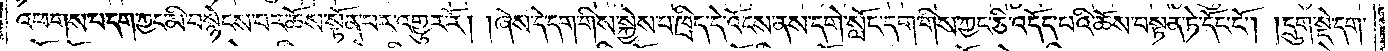འཕགས་པ་དག་ཀྱང་མི་བསྙེངས་པར་ཆོས་སྟོན་པར་འགྱུར་རོ། །ཞེས་དེ་དག་གིས་སྐྱེས་པ་ཁྲིད་དེ་འོངས་ནས་དགེ་སློང་དག་གིས་ཀྱང་ཅི་འདོད་པའི་ཆོས་བསྟན་ཏེ་དོང་ངོ༌། །དྲུག་སྡེ་དག་
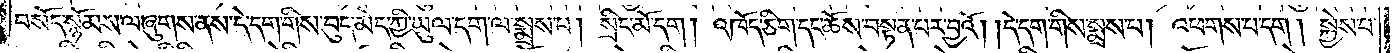བསོད་སྙོམས་ལ་ཞུགས་ནས་དེ་དག་གིས་བུད་མེད་ཀྱི་ཡུལ་དག་ལ་སྨྲས་པ། སྲིང་མོ་དག། འཁོད་ཅིག་དང་ཆོས་བསྟན་པར་བྱའོ། །དེ་དག་གིས་སྨྲས་པ། འཕགས་པ་དག །སྐྱེས་པ་
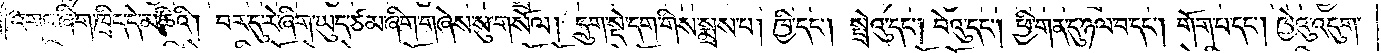འགའ་ཞིག་ཁྲིད་དེ་མཆིའི། བར་དུ་རེ་ཞིག་ཡུད་ཙམ་ཞིག་གཞེས་སུ་གསོལ། དྲུག་སྡེ་དག་གིས་སྨྲས་པ། ཁྱི་དང༌། སྤྲེའུ་དང༌། བེའུ་དང༌། ཕྱི་གན་དུ་ཉལ་བ་དང༌། གོག་པ་དང༌། ཁྱེའུ་འདུག་
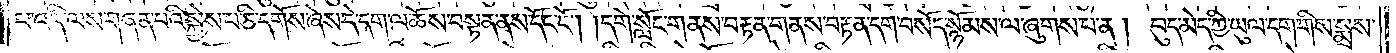པ་འདི་ལས་གཞན་པའི་སྐྱེས་པ་ཅི་དགོས་ཞེས་དེ་དག་ལ་ཆོས་བསྟན་ནས་དོང་ངོ༌། །དགེ་སློང་གནས་བརྟན་གནས་བརྟན་དག་བསོད་སྙོམས་ལ་ཞུགས་པ་ན། བུད་མེད་ཀྱི་ཡུལ་དག་གིས་སྨྲས་
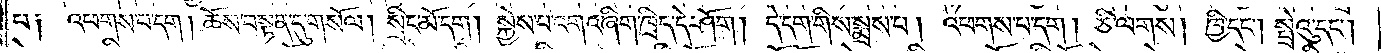པ༑ འཕགས་པ་དག། ཆོས་བསྟན་དུ་གསོལ། སྲིང་མོ་དག། སྐྱེས་པ་འགའ་ཞིག་ཁྲིད་དེ་ཤོག། དེ་དག་གིས་སྨྲས་པ། འཕགས་པ། ཅི་ལགས། ཁྱི་དང༌། སྤྲེའུ་དང༌།
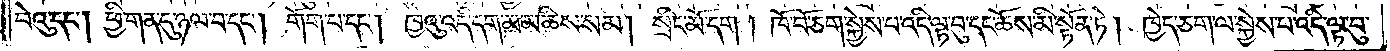བེའུ་དང༌། ཕྱི་གན་དུ་ཉལ་བ་དང༌། གོག་པ་དང༌། ཁྱེའུ་འདི་དག་མ་མཆིས་སམ། སྲིང་མོ་དག །ཁོ་བོ་ཅག་སྐྱེས་པ་འདི་ལྟ་བུ་དང་ཆོས་མི་སྟོན་ཏེ། ཁྱེད་ཅག་ལ་སྐྱེས་པ་འདི་ལྟ་བུ་
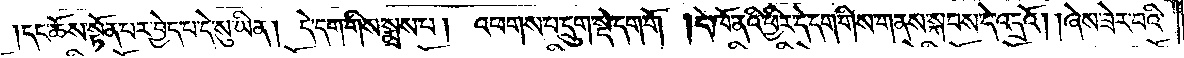དང་ཆོས་སྟོན་པར་བྱེད་པ་དེ་སུ་ཡིན། དེ་དག་གིས་སྨྲས་པ། འཕགས་པ་དྲུག་སྡེ་དག་གོ །དེ་ཁོ་ནའི་ཕྱིར་དེ་དག་གིས་གནས་སྐབས་དེ་འདྲའོ། །ཞེས་ཟེར་བའི་
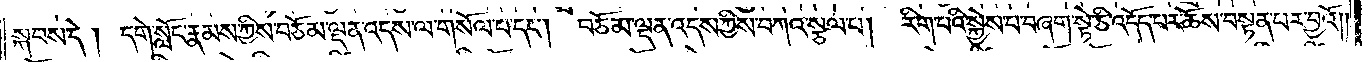སྐབས་དེ། དགེ་སློང་རྣམས་ཀྱིས་བཅོམ་ལྡན་འདས་ལ་གསོལ་པ་དང༌། བཅོམ་ལྡན་འདས་ཀྱིས་བཀའ་སྩལ་པ། རིག་པའི་སྐྱེས་པ་བཞག་སྟེ་ཅི་འདོད་པར་ཆོས་བསྟན་པར་བྱའོ༎
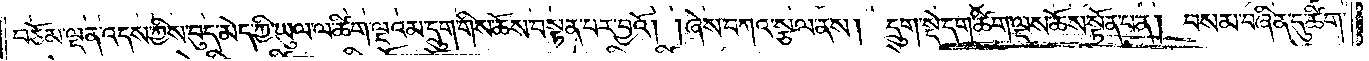བཅོམ་ལྡན་འདས་ཀྱིས་བུད་མེད་ཀྱི་ཡུལ་ལ་ཚིག་ལྔའམ་དྲུག་གིས་ཆོས་བསྟན་པར་བྱའོ། །ཞེས་བཀའ་སྩལ་ནས། དྲུག་སྡེ་དག་ཚིག་ལྔས་ཆོས་སྟོན་པ་ན། བསམ་བཞིན་དུ་ཚིག་
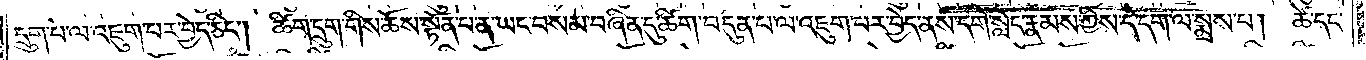དྲུག་པ་ལ་འཇུག་པར་བྱེད་ཅིང༌། ཚིག་དྲུག་གིས་ཆོས་སྟོན་པ་ན་ཡང་བསམ་བཞིན་དུ་ཚིག་བདུན་པ་ལ་འཇུག་པར་བྱེད་ནས་དགེ་སློང་རྣམས་ཀྱིས་དེ་དག་ལ་སྨྲས་པ། ཚེ་དང་
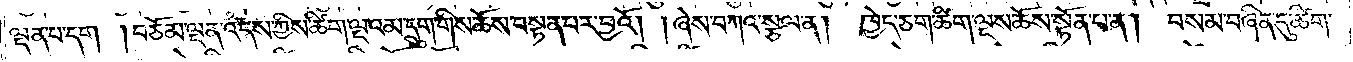ལྡན་པ་དག །བཅོམ་ལྡན་འདས་ཀྱིས་ཚིག་ལྔའམ་དྲུག་གིས་ཆོས་བསྟན་པར་བྱའོ། །ཞེས་བཀའ་སྩལ་ན། ཁྱེད་ཅག་ཚིག་ལྔས་ཆོས་སྟོན་པ་ན། བསམ་བཞིན་དུ་ཚིག་
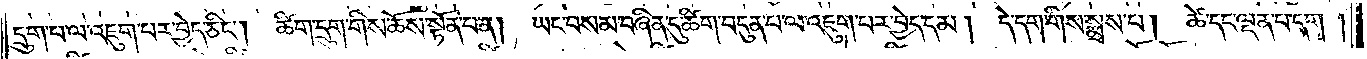དྲུག་པ་ལ་འཇུག་པར་བྱེད་ཅིང༌། ཚིག་དྲུག་གིས་ཆོས་སྟོན་པ་ན། ཡང་བསམ་བཞིན་དུ་ཚིག་བདུན་པ་ལ་འཇུག་པར་བྱེད་དམ། དེ་དག་གིས་སྨྲས་པ། ཚེ་དང་ལྡན་པ་དག །
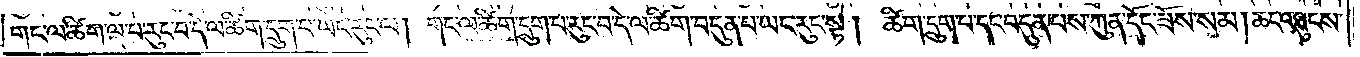གང་ལ་ཚིག་ལྔ་པ་རུང་བ་དེ་ལ་ཚིག་དྲུག་པ་ཡང་རུང་ལ། གང་ལ་ཚིག་དྲུག་པ་རུང་བ་དེ་ལ་ཚིག་བདུན་པ་ཡང་རུང་སྟེ། ཚིག་དྲུག་པ་དང་བདུན་པས་ཀུན་དོང་ཟོས་སམ། ཆང་འཐུངས་
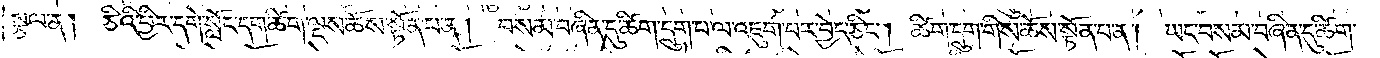སྩལ་ན། ཅིའི་ཕྱིར་དགེ་སློང་དག་ཚིག་ལྔས་ཆོས་སྟོན་པ་ན། བསམ་བཞིན་དུ་ཚིག་དྲུག་པ་ལ་འཇུག་པར་བྱེད་ཅིང༌། ཚིག་དྲུག་གིས་ཆོས་སྟོན་པ་ན། ཡང་བསམ་བཞིན་དུ་ཚིག་
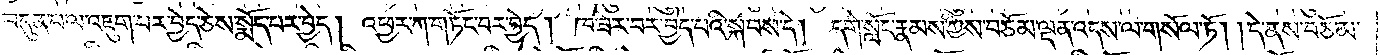བདུན་པ་ལ་འཇུག་པར་བྱེད་ཅེས་སྨོད་པར་བྱེད། འཕྱར་ཀ་གཏོང་བར་བྱེད། ཁ་ཟེར་བར་བྱེད་པའི་སྐབས་དེ། དགེ་སློང་རྣམས་ཀྱིས་བཅོམ་ལྡན་འདས་ལ་གསོལ་ཏོ། །དེ་ནས་བཅོམ་
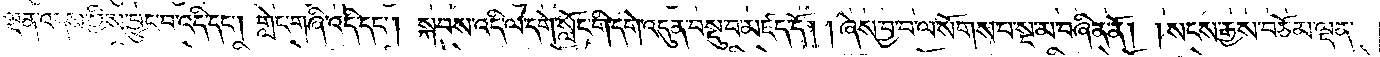ལྡན་འདས་ཀྱིས་བྱུང་བ་འདི་དང༌། གླེང་གཞི་འདི་དང༌། སྐབས་འདི་ལ་དགེ་སློང་གི་དགེ་འདུན་བསྡུ་བ་མཛད་དོ། །ཞེས་བྱ་བ་ལ་སོགས་པ་སྔ་མ་བཞིན་ནོ། །སངས་རྒྱས་བཅོམ་ལྡན་
